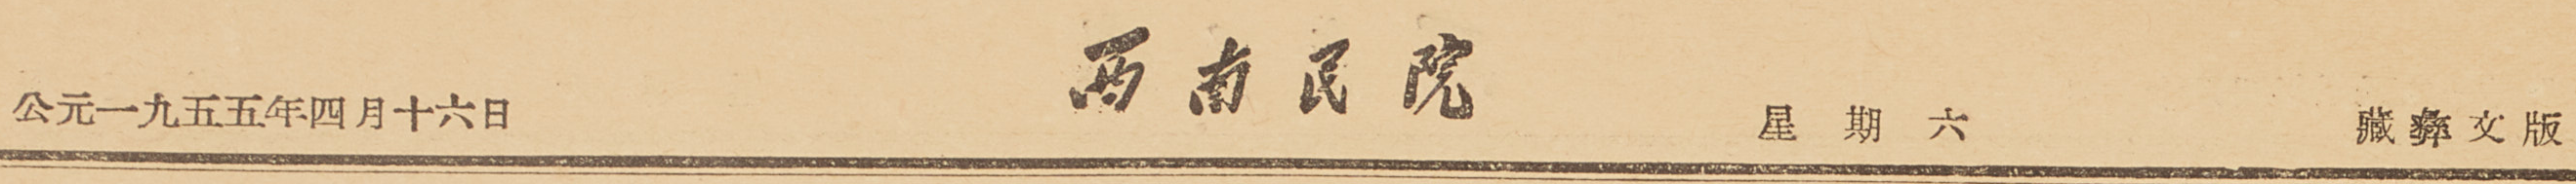公元一九五五年四月十六日 西南民院 星期六 藏彝文版
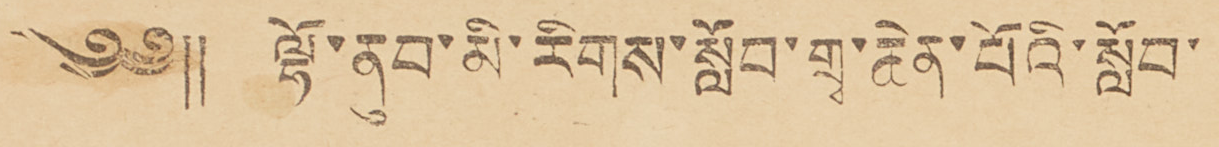༄༅༎ ལྷོ་ནུབ་མི་རིགས་སློབ་གྲྭ་ཆེན་པོའི་སློབ་
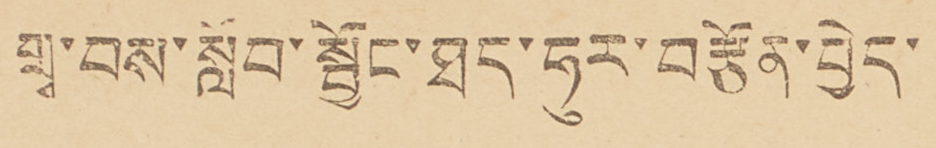གྲྭ་བས་སློབ་སྦྱོང་ཐད་ཧུར་བརྩོན་བྱེད་
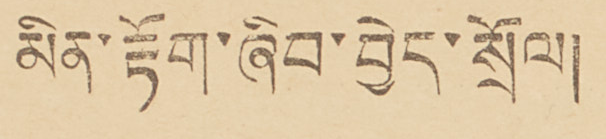མིན་རྟོག་ཞིབ་བྱེད་སྲོལ།
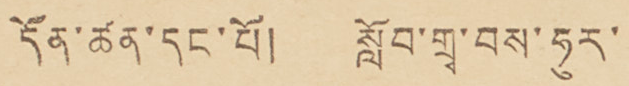དོན་ཚན་དང་པོ། སློབ་གྲྭ་བས་ཧུར་
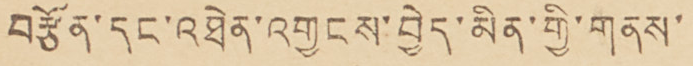བརྩོན་དང་འཐེན་འགྱངས་བྱེད་མིན་གྱི་གནས་
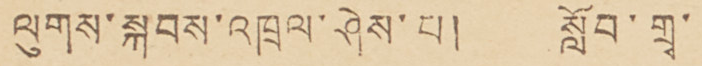ལུགས་སྐབས་འཁྲལ་ཤེས་པ། སློབ་གྭ་
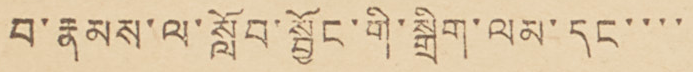བ་རྣམས་ལ་སློབ་སྦྱོང་གི་སྒྲིག་ལམ་དང་་་་
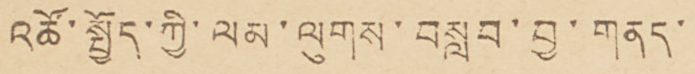འཚོ་སྤྱོད་ཀྱི་ལམ་ལུགས་བསླབ་བྱ་གནད་
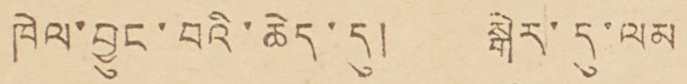ཁེལ་བྱུང་བའི་ཆེད་དུ། སྒེར་དུ་ལམ
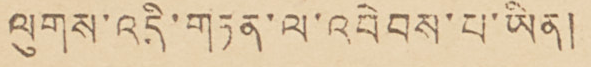ལུགས་འདི་གཏན་ལ་འབེབས་པ་ཡིན།
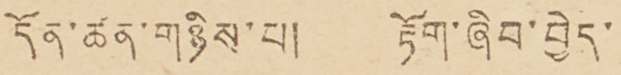དོན་ཚན་གཉིས་པ། རྟོག་ཞིབ་བྱེད་
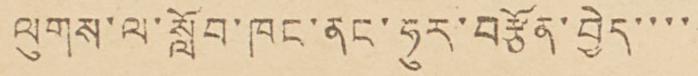ལུགས་ལ་སློབ་ཁང་ནང་ཧུར་བརྩོན་བྱེད་་་་
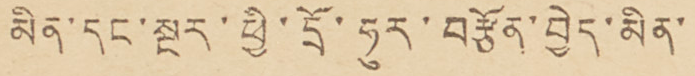མིན་དང་སྔར་ཕྱི་དྲོ་ཧུར་བརྩོན་བྱེད་མིན་
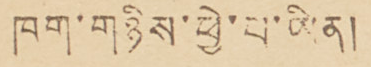ཁག་གཉིས་ཕྱེ་པ་ཡིན།
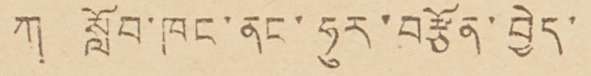ཀ སློབ་ཁང་ནང་ཧུར་བརྩོན་བྱེད་
